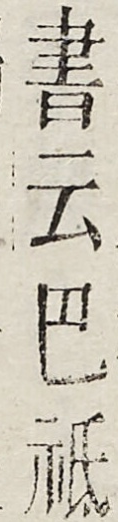書云巴祇
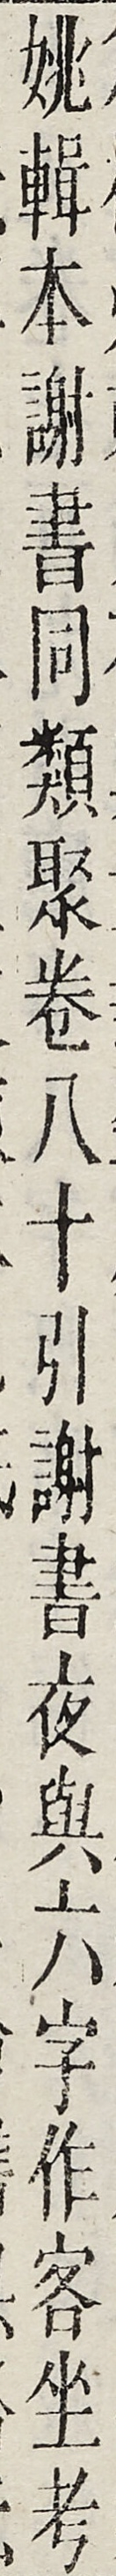姚輯本謝書同類聚卷八十引謝書夜與六字作客坐考
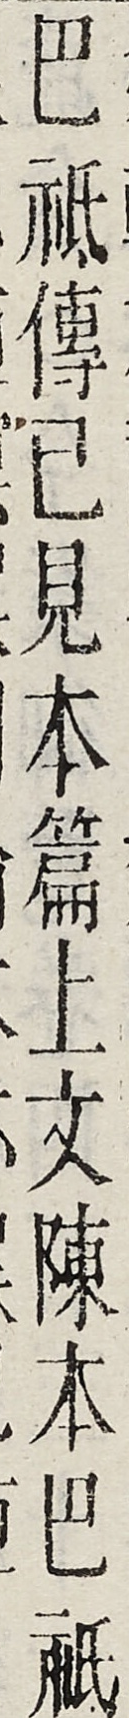巴祗傳已見本篇上文陳本巴祇
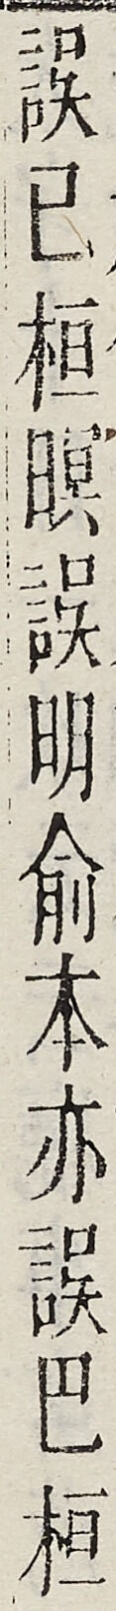誤已桓暝誤明俞本亦誤巴桓
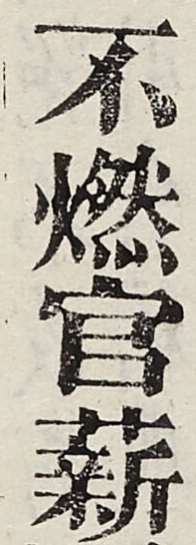不燃官薪
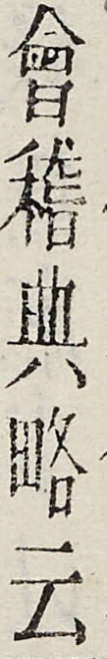會稽典略云
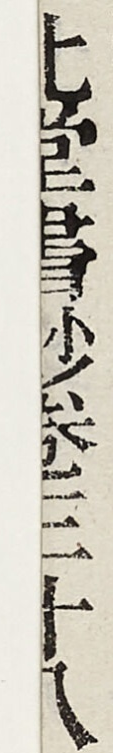北堂書鈔卷第三十八
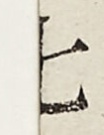七
